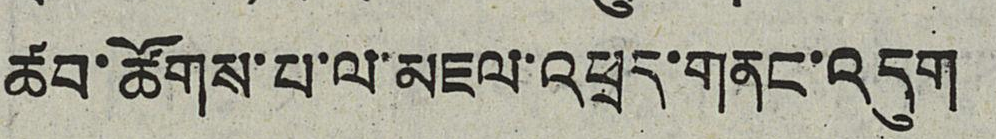ཚབ་ཚོགས་པ་ལ་མཇལ་འཕྲད་གནང་འདུག
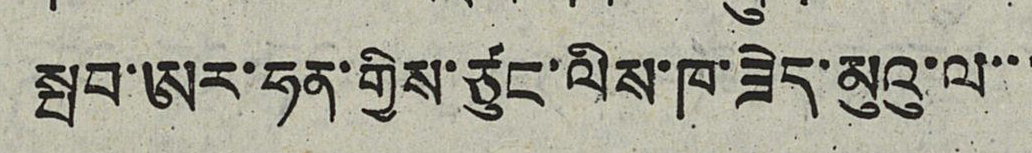སྤབ་ཨར་ཧན་གྱིས་ཙུང་ལིས་ཁ་ཟེད་མུའུ་ལ་་་
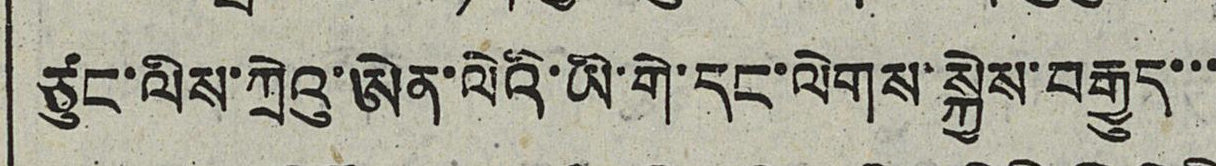ཙུང་ལིས་ཀྲེའུ་ཨེན་ལེའི་ཡི་གེ་དང་ལེགས་སྐྱེས་བརྒྱུད་་་
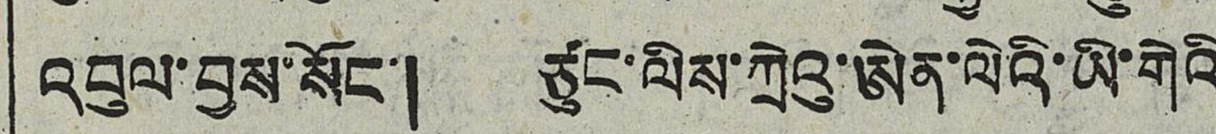འབུལ་བྱས་སོང་། ཙུང་ལིས་ཀྲེའུ་ཨེན་ལེའི་ཡི་གེའི
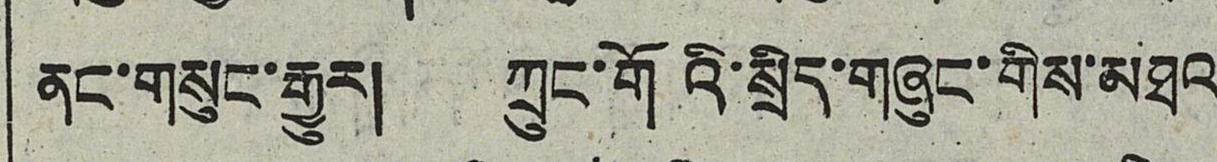ནང་གསུང་རྒྱུར། ཀྲུང་གོའི་སྲིད་གཞུང་གིས་མཐའ
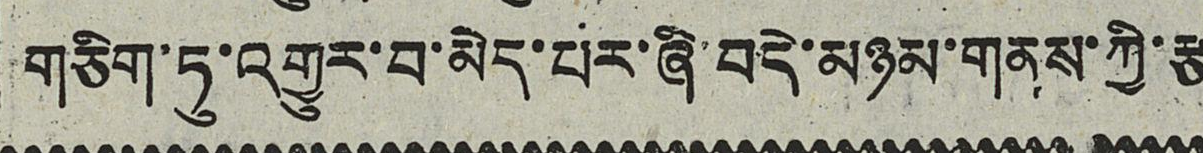གཅིག་ཏུ་འགྱུར་བ་མེད་པར་ཞི་བདེ་མཉམ་གནས་ཀྱི་རྩ
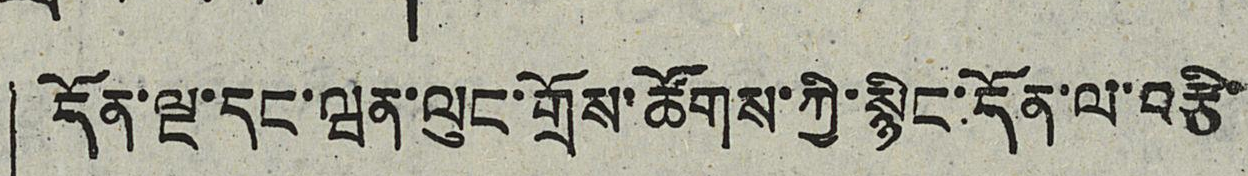དོན་ལྔ་དང་ཝན་ལུང་གྲོས་ཚོགས་ཀྱི་སྙིང་དོན་ལ་བརྩི་
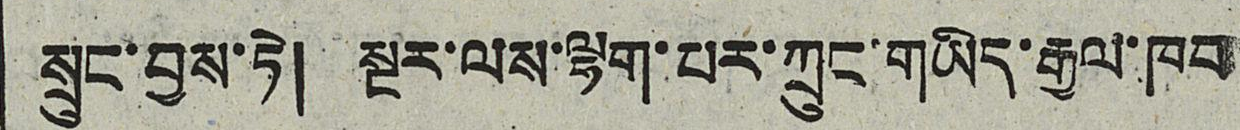སྲུང་བྱས་ཏེ། སྔར་ལས་ལྷག་པར་ཀྲུང་གཡིད་རྒྱལ་ཁབ
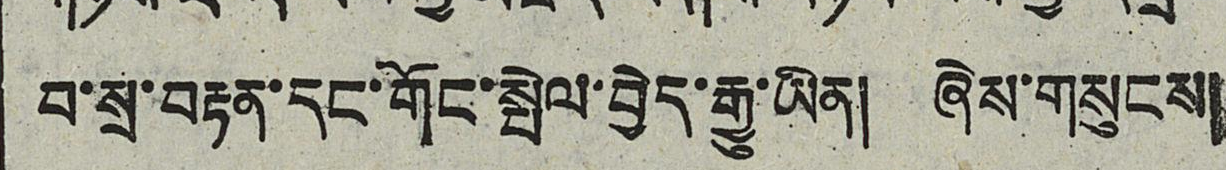བ་སྲ་བརྟན་དང་གོང་སྤེལ་བྱེད་རྒྱུ་ཡིན། ཞེས་གསུངས།
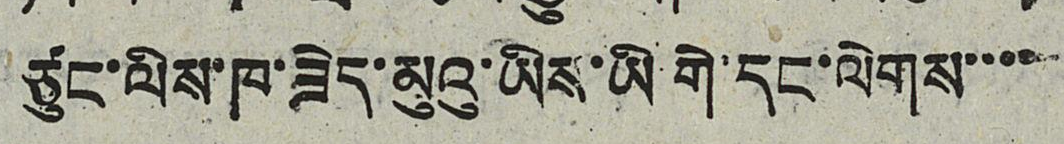ཙུང་ལིས་ཁ་ཟེད་མུའུ་ཡིས་ཡི གེ་དང་ལེགས་་་་
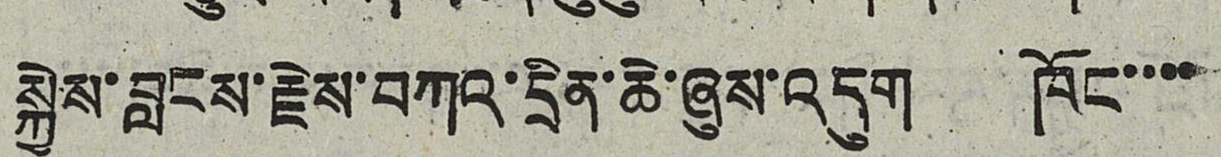སྐྱེས་བླངས་རྗེས་བཀའ་དྲིན་ཆེ་ཞུས་འདུག ཁོང་་་་
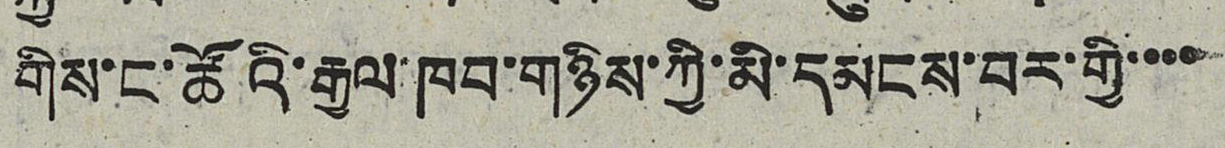གིས་ང་ཚོའི་རྒྱལ་ཁབ་གཉིས་ཀྱི་མི་དམངས་བར་གྱི་་་་
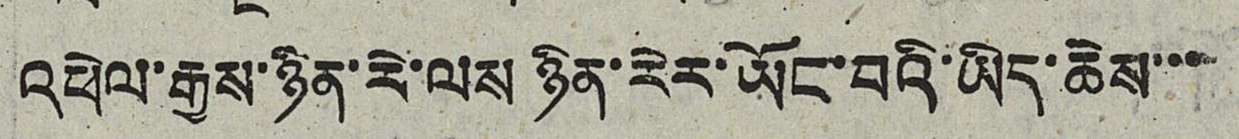འཕེལ་རྒྱས་ཉིན་རེ་ལས ཉིན་རེར་ཡོང་བའི་ཡིད་ཆེས་་་
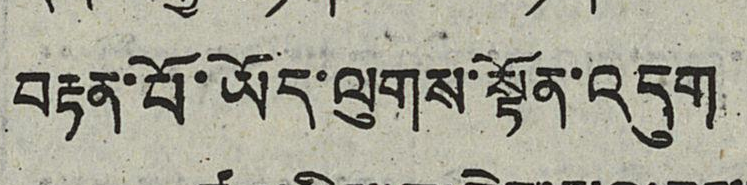བརྟན་པོ་ཡོད་ལུགས་སྟོན་འདུག
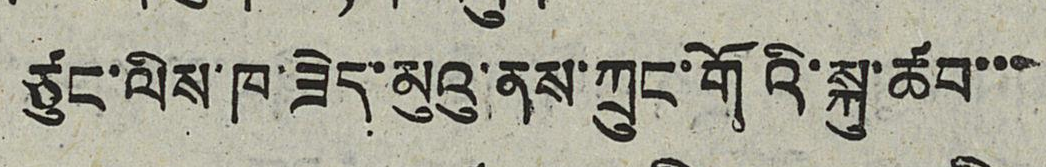ཙུང་ལིས་ཁ་ཟེད་མུའུ་ནས་ཀྲུང་གོའི་སྐུ་ཚབ་་་
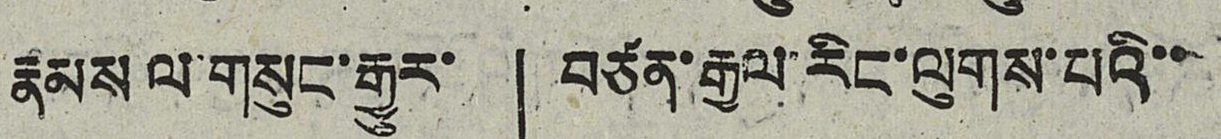རྣམས ལ་གསུང་རྒྱུར་ 「བཙན་རྒྱལ་རིང་ལུགས་པའི་་
